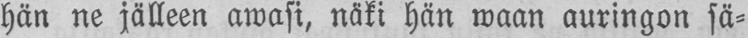hän ne jälleen awasi, näki hän waan auringon sä-
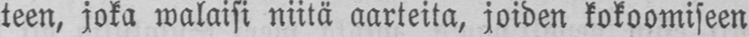teen, joka walaisi niitä aarteita, joiden kokoomiseen
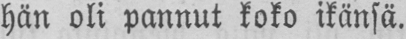hän oli pannut koko ikänsä.
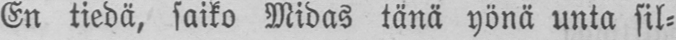En tiedä, saiko Midas tänä yönä unta sil-
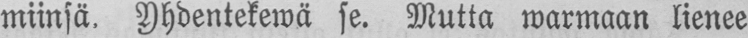miinsä. Yhdentekewä se. Mutta warmaan lienee
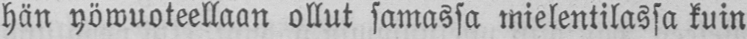hän yöwuoteellaan ollut samassa mielentilassa kuin
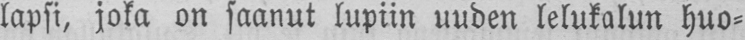lapsi, joka on saanut lupiin uuden lelukalun huo-
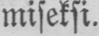miseksi.
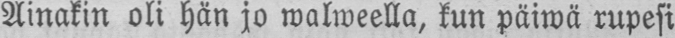Ainakin oli hän jo walweella, kun päiwä rupesi
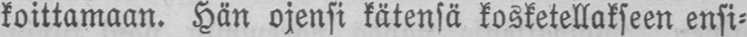koittamaan. Hän ojensi kätensä kosketellakseen ensi-
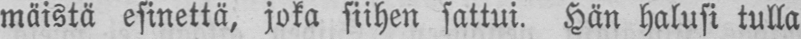mäistä esinettä, joka siihen sattui. Hän halusi tulla
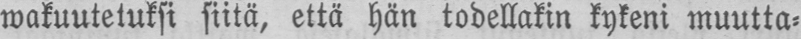wakuutetuksi siitä, että hän todellakin kykeni muutta-
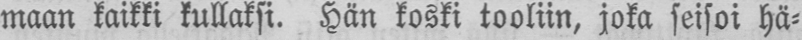maan kaikki kullaksi. Hän koski tooliin, joka seisoi hä-
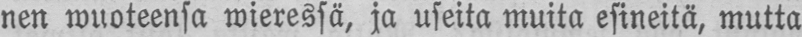nen wuoteensa wieressä, ja useita muita esineitä, mutta
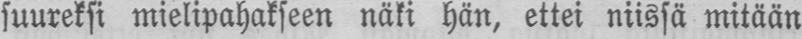suureksi mielipahakseen näki hän, ettei niissä mitään
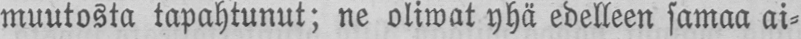muutosta tapahtunut; ne oliwat yhä edelleen samaa ai-
